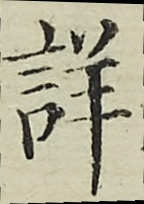詳
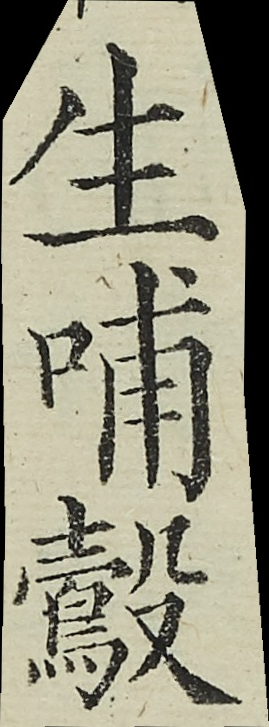生哺鷇
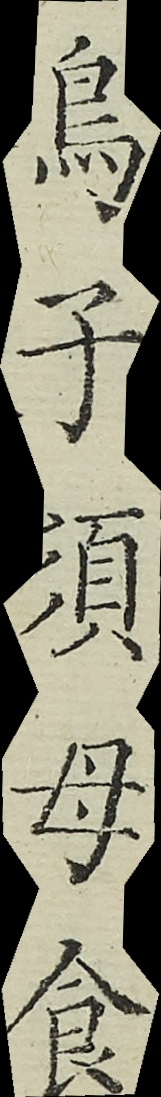鳥子須母食
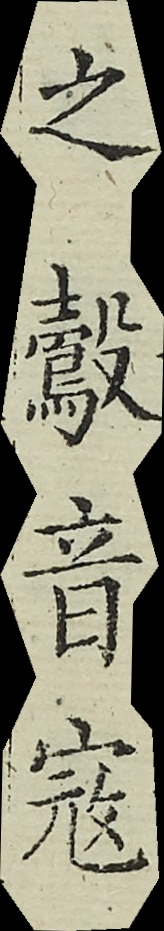之鷇音寇
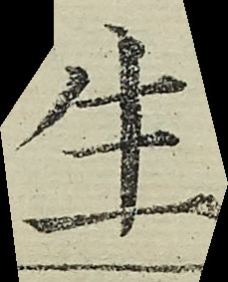生
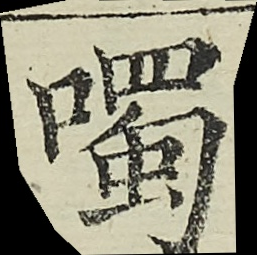噣
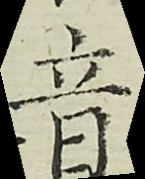音
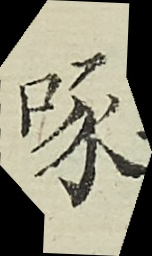啄
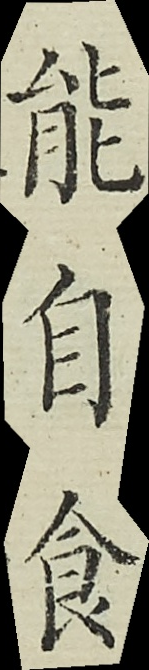能自食
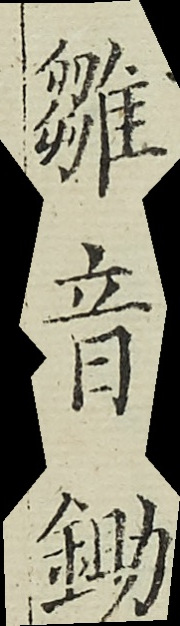雛音鋤
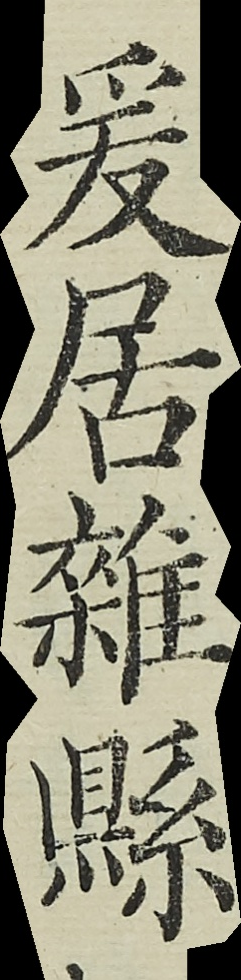爰居雜縣
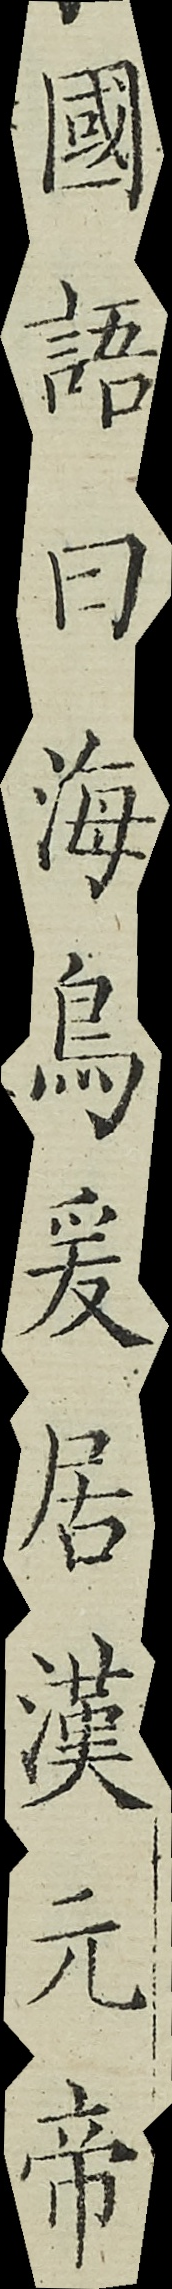國語曰海鳥爰居漢元帝
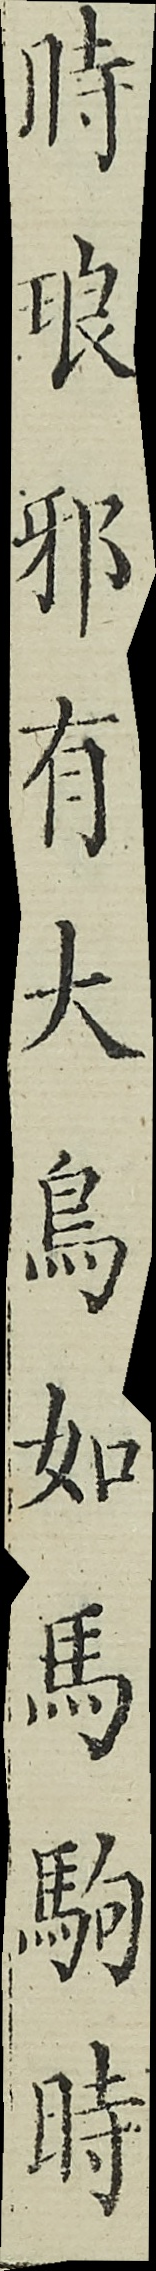時琅邪有大鳥如馬駒時
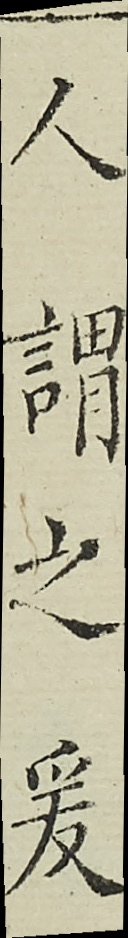人謂之爰
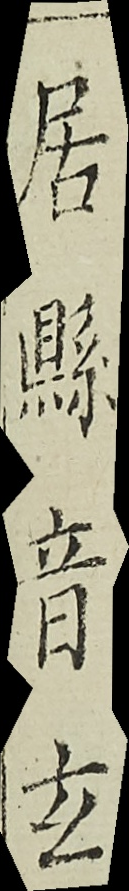居縣音玄
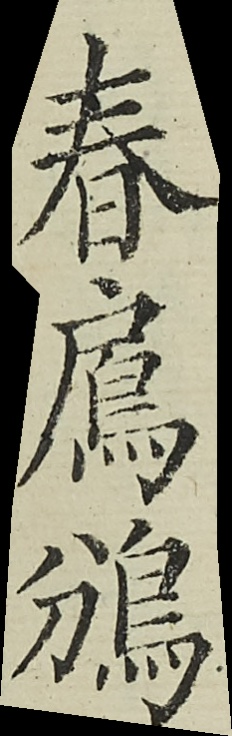春鳸鳻
